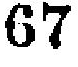67
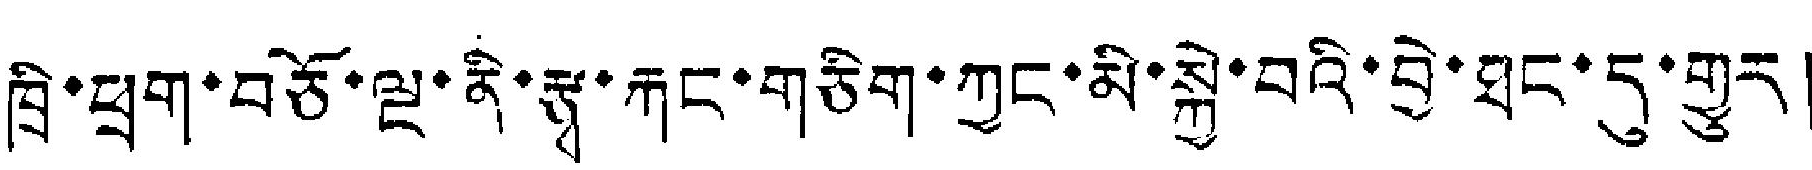ཁྲི་ཕྲག་བཅོ་ལྔ་ནི་རྩྭ་རྐང་གཅིག་ཀྱང་མི་སྐྱེ་བའི་བྱེ་ཐང་དུ་གྱུར།
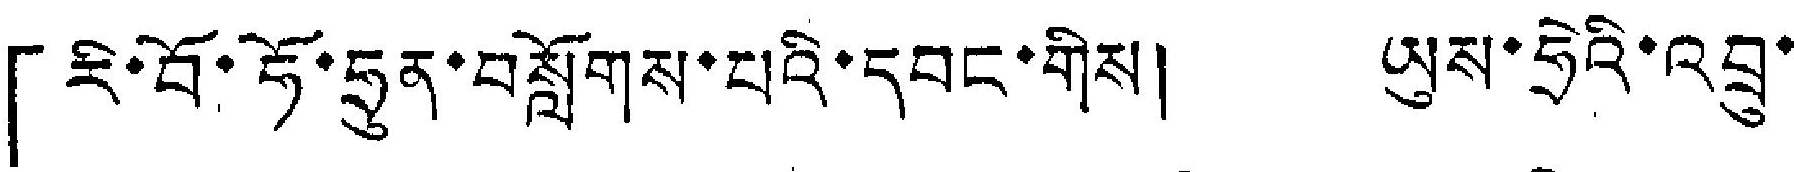「རི་བོ་ཧོ་ཧྲུན་བསློགས་པའི་དབང་གིས། ཡུས་ཧྲེའི་འབྲུ་
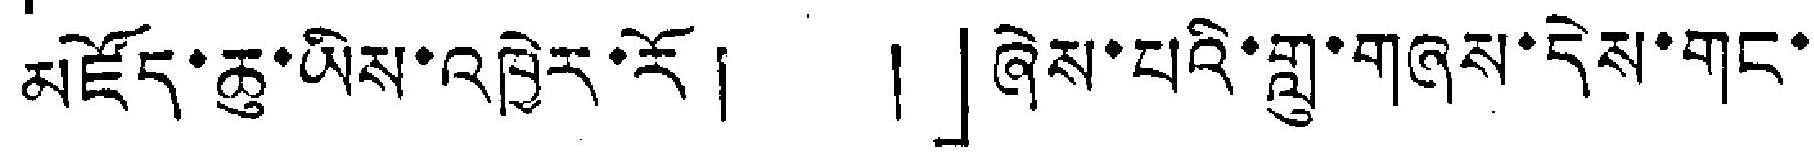མཛོད་ཆུ་ཡིས་འཁྱེར་རོ། །」ཞེས་པའི་གླུ་གཞས་དེས་གང་
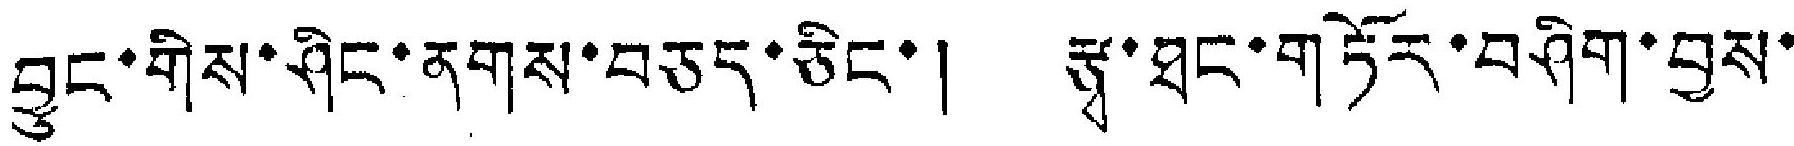བྱུང་གིས་ཤིང་ནགས་བཅད་ཅིང་། རྩྭ་ཐང་གཏོར་བཤིག་བྱས་
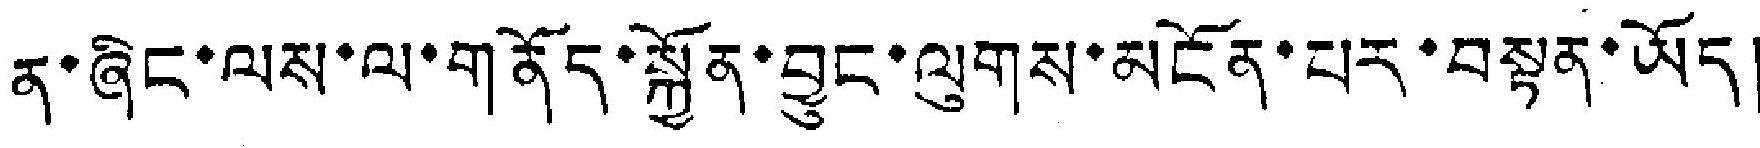ན་ཞིང་ལས་ལ་གནོད་སྐྱོན་བྱུང་ལུགས་མངོན་པར་བསྟན་ཡོད།
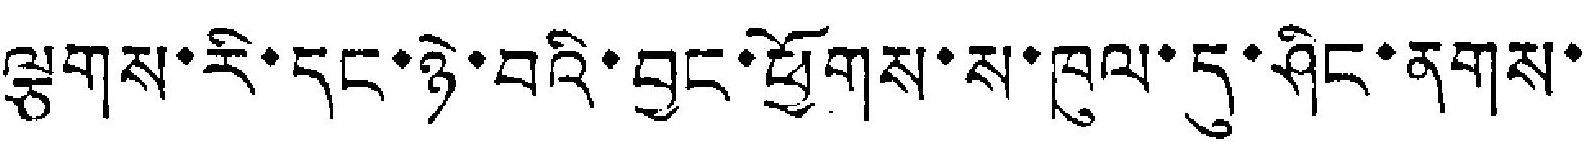ལྕགས་རི་དང་ཉེ་བའི་བྱང་ཕྱོགས་ས་ཁུལ་དུ་ཤིང་ནགས་
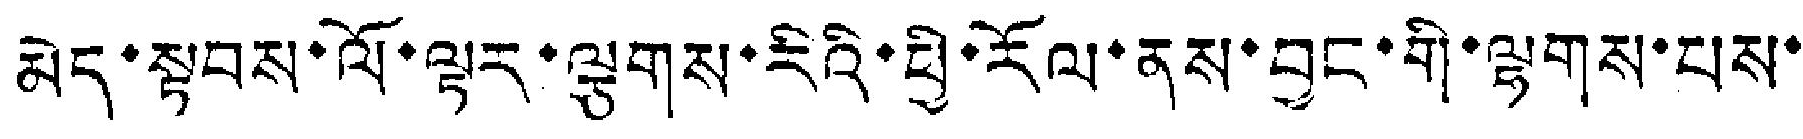མེད་སྟབས་ལོ་ལྟར་ལྕགས་རིའི་ཕྱི་རོལ་ནས་བྱང་གི་ལྷགས་པས་
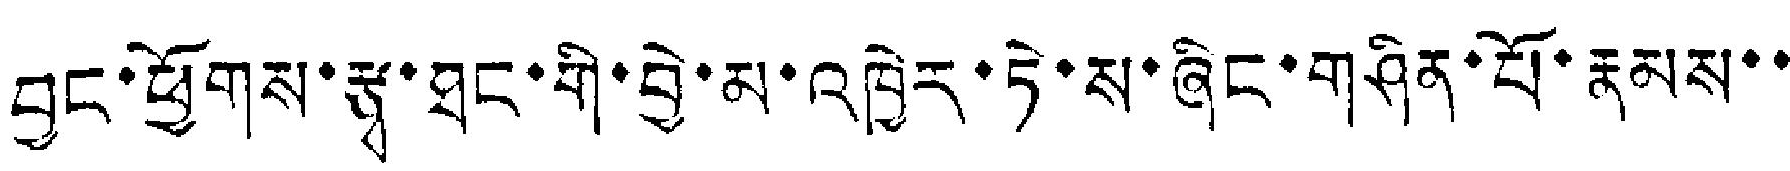བྱང་ཕྱོགས་རྩྭ་ཐང་གི་བྱེ་མ་འཁྱེད་ཏེ་ས་ཞིང་གཤིན་པོ་རྣམས་་
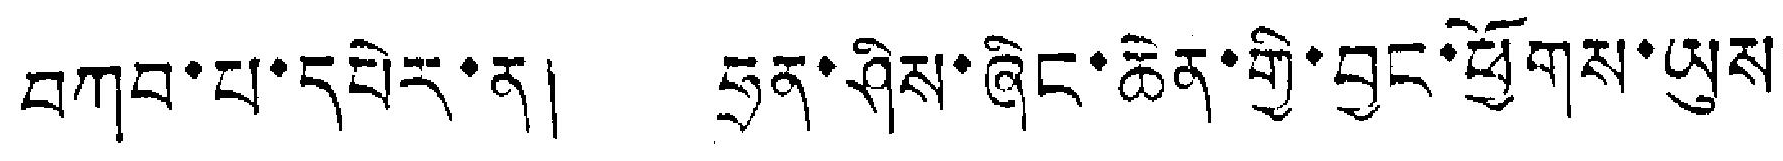བཀབ་པ་དཔེར་ན། ཧྲན་ཤིས་ཞིང་ཆེན་གྱི་བྱང་ཕྱོགས་ཡུས་
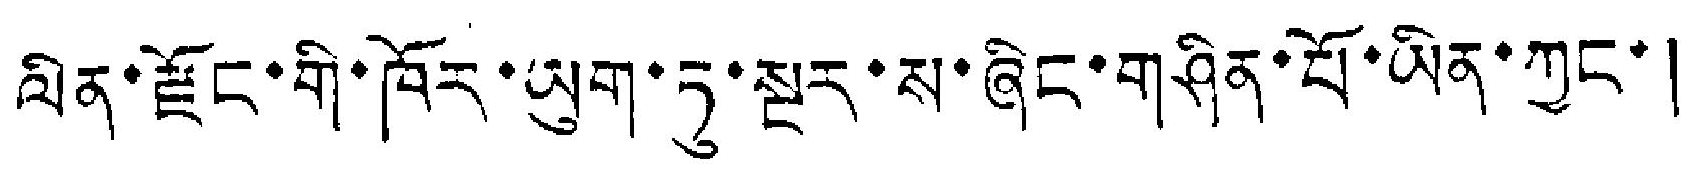ལིན་རྫོང་གི་ཁོར་ཡུག་ཏུ་སྔར་ས་ཞིང་གཤིན་པོ་ཡིན་ཀྱང་།
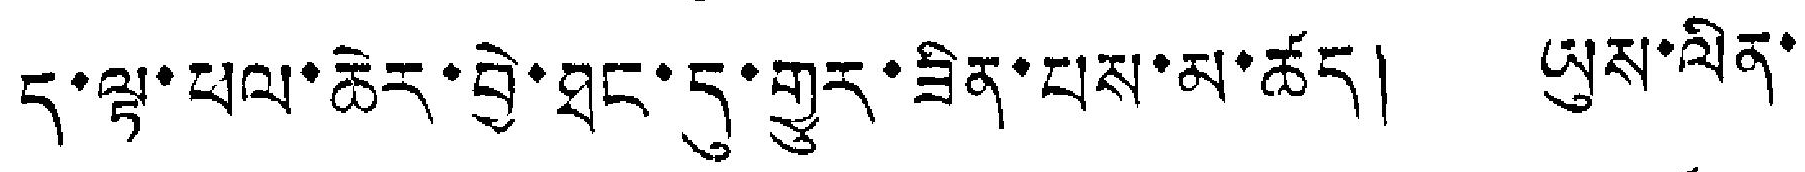ད་ལྟ་ཕལ་ཆེར་བྱེ་ཐང་དུ་གྱུར་ཟིན་པས་མ་ཚད། ཡུས་ལིན་
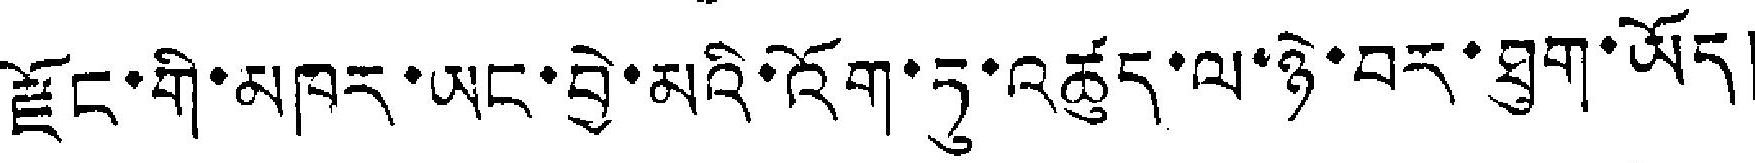རྫོང་གི་མཁར་ཡང་བྱེ་མའི་འོག་ཏུ་འཚུད་ལ་ཉེ་བར་ཐུག་ཡོད།
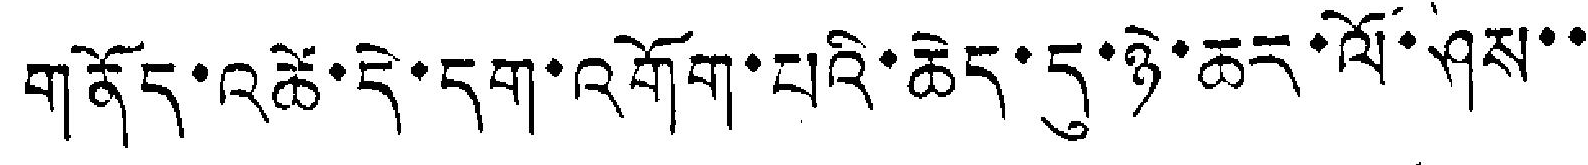གནོད་འཚེ་དེ་དག་འགོག་པའི་ཆེད་དུ་ཉེ་ཆར་ལོ་ཤས་་
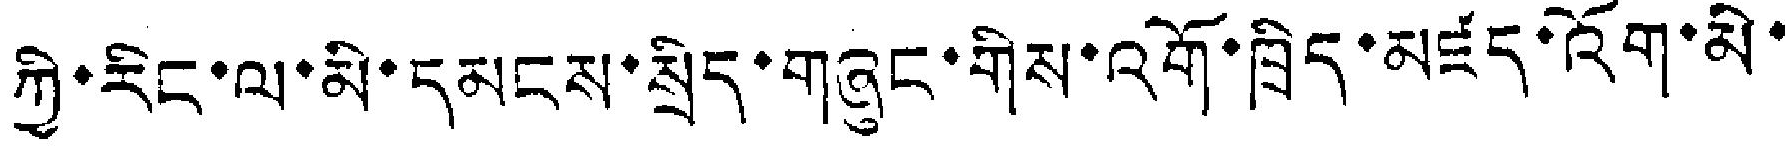ཀྱི་རིང་ལ་མི་དམངས་སྲིད་གཞུང་གིས་འགོ་ཁྲིད་མཛད་འོག་མི་
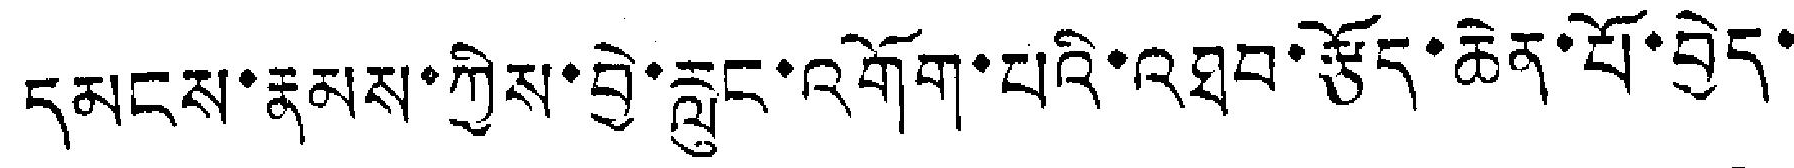དམངས་རྣམས་ཀྱིས་བྱེ་རླུང་འགོག་པའི་འཐབ་རྩོད་ཆེན་པོ་བྱེད་
